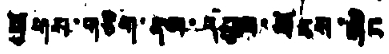ཕྱོགས་གཅིག་ནས་དབུལ་ཕོངས་ཞིང
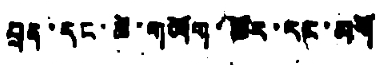བྲན་དང་ཚེ་གཡོག་ཚོར་དང་མགོ་
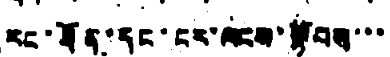རང་ཐོན་དང་ངར་ལངས་སྟོབས་་་
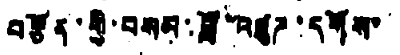བརྩོན་གྱི་བསམ་བློ་འཛུཌ་དགོས་
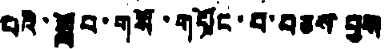པའི་སློབ་གསོ་གཏོང་བ་བཅས་བྱས
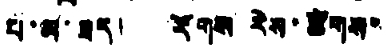པ་མ་ཟད། རོགས རེས་ཚོགས་
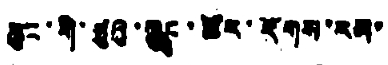ཆུང་གི་ཙུའུ་ཀྱང་ཚོར་རོགས་རམ་
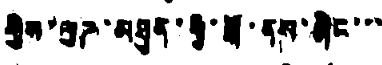གྱིས་ལུཌ་མཐུན་གྱི་སྒོ་ནས་ཞིང་་་
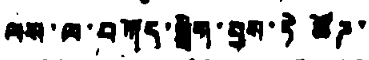ལས་ལ་བཀོད་སྒྲིག་བྱས་ཏེ ཚོཌ་་
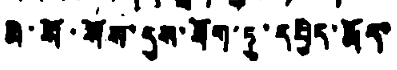མི་སོ་སོས་དུས་ཐོག་ཏུ་དཔྱིད་རྨོད་
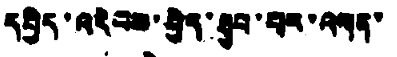དཔྱིད་འདེབས་བྱེད་ཐུབ་པར་འགན་
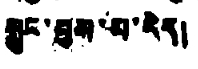སྲུང་བྱས་པ་རེད།
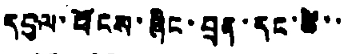དབུལ་པོངས་ཞིང་བྲན་དང་ཚེ་་
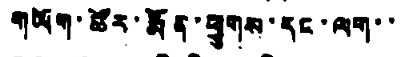གཡོག་ཚོར་རྨོན་ཕྱུགས་དང་ལག་་
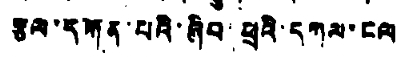རྩལ་དཀོན་པའི་ཞིབ་ཕྲའི་དཀལ་ངལ
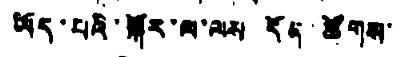ཡོད་པའི་སྐོར་ལ་ལས་དོན་ཚོགས་
